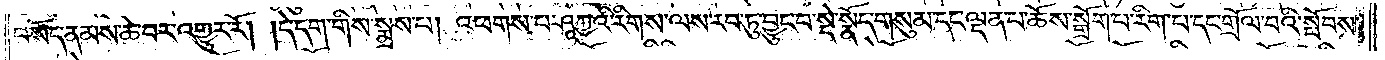བསོད་ནམས་ཆེ་བར་འགྱུར་རོ། །དེ་དག་གིས་སྨྲས་པ། འཕགས་པ་ཤཱཀྱའི་རིགས་ལས་རབ་ཏུ་བྱུང་བ་སྡེ་སྣོད་གསུམ་དང་ལྡན་པ་ཆོས་སྒྲོག་པ་རིག་པ་དང་གྲོལ་བའི་སྤོབས་
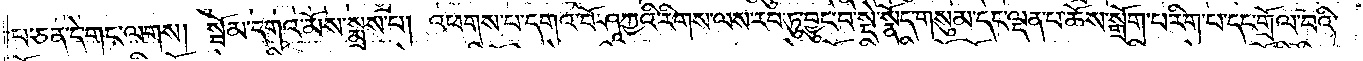པ་ཅན་དེ་གང་ལགས། སྦོམ་དགའ་མོས་སྨྲས་པ། འཕགས་པ་དགའ་བོ་ཤཱཀྱའི་རིགས་ལས་རབ་ཏུ་བྱུང་བ་སྡེ་སྣོད་གསུམ་དང་ལྡན་པ་ཆོས་སྒྲོག་པ་རིག་པ་དང་གྲོལ་བའི་
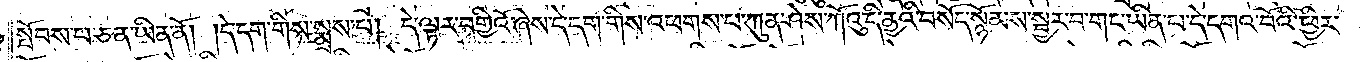སྤོབས་པ་ཅན་ཡིན་ནོ། །དེ་དག་གིས་སྨྲས་པ། དེ་ལྟར་བགྱིའོ་ཞེས་དེ་དག་གིས་འཕགས་པ་ཀུན་ཤེས་ཀོའུ་དི་ནྱའི་བསོད་སྙོམས་བྱར་བ་གང་ཡིན་པ་དེ་དགའ་བོའི་ཕྱིར་
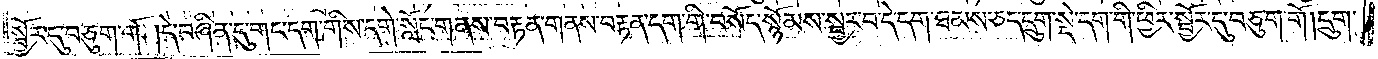སྦྱོར་དུ་བཅུག་གོ །དེ་བཞིན་དུ་གང་དག་གིས་དགེ་སློང་གནས་བརྟན་གནས་བརྟན་དག་གིས་བསོད་སྙོམས་སྦྱར་བ་དེ་དག་ཐམས་ཅད་དྲུག་སྡེ་དག་གི་ཕྱིར་སྦྱོར་དུ་བཅུག་གོ །དྲུག་
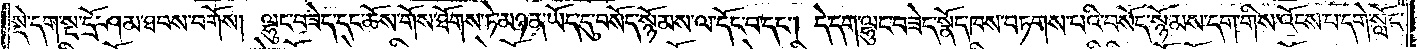སྡེ་དག་སྔ་དྲོ་ཤམ་ཐབས་བགོས། ལྷུང་བཟེད་དང་ཆོས་གོས་ཐོགས་ཏེ་མཉན་ཡོད་དུ་བསོད་སྙོམས་ལ་དོང་བ་དང༌། དེ་དག་ལྷུང་བཟེད་སྣོད་ཁས་བཏགས་པའི་བསོད་སྙོམས་དག་གིས་འོངས་པ་དགེ་སློང་
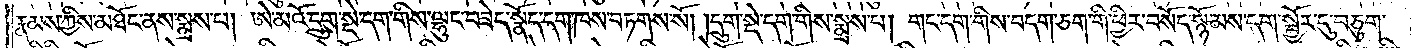རྣམས་ཀྱིས་མཐོང་ནས་སྨྲས་པ། ཨེ་མའོ་དྲུག་སྡེ་དག་གིས་ལྷུང་བཟེད་སྣོད་དག་ཁས་བཏགས་སོ། །དྲུག་སྡེ་དག་གིས་སྨྲས་པ། གང་དག་གིས་བདག་ཅག་གི་ཕྱིར་བསོད་སྙོམས་དག་སྦྱོར་དུ་བཅུག་
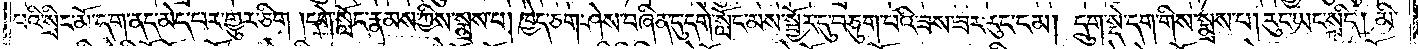པའི་སྲིང་མོ་དག་ནད་མེད་པར་གྱུར་ཅིག །དགེ་སློང་རྣམས་ཀྱིས་སྨྲས་པ། ཁྱེད་ཅག་ཤེས་བཞིན་དུ་དགེ་སློང་མས་སྦྱོར་དུ་བཅུག་པའི་ཟས་ཟར་རུང་ངམ། དྲུག་སྡེ་དག་གིས་སྨྲས་པ། རུང་ཡང་སྲིད། མི་
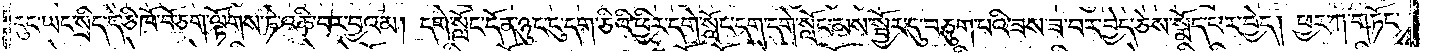རུང་ཡང་སྲིད་དེ་ཅི་ཁོ་བོ་ཅག་ལྟོགས་ཏེ་འཆི་བར་བྱའམ། དགེ་སློང་དོན་ཉུང་ངུ་དག་ཅིའི་ཕྱིར་དགེ་སློང་དག་དགེ་སློང་མས་སྦྱོར་དུ་བཅུག་པའི་ཟས་ཟ་བར་བྱེད་ཅེས་སྨོད་པར་བྱེད། ཕྱར་ཀ་གཏོང་
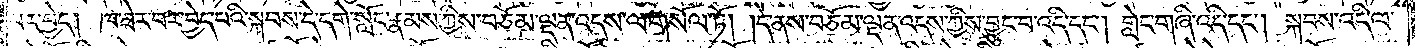བར་བྱེད། ཁ་ཟེར་བར་བྱེད་པའི་སྐབས་དེ་དགེ་སློང་རྣམས་ཀྱིས་བཅོམ་ལྡན་འདས་ལ་གསོལ་ཏོ། །དེ་ནས་བཅོམ་ལྡན་འདས་ཀྱིས་བྱུང་བ་འདི་དང༌། གླེང་གཞི་འདི་དང༌། སྐབས་འདི་ལ་
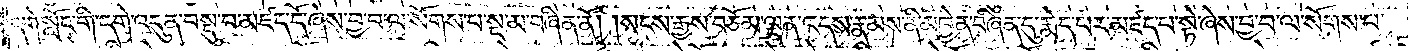དགེ་སློང་གི་དགེ་འདུན་བསྡུ་བ་མཛད་དོ་ཞེས་བྱ་བ་ལ་སོགས་པ་སྔ་མ་བཞིན་ནོ། །སངས་རྒྱས་བཅོམ་ལྡན་འདས་རྣམས་ནི་མཁྱེན་བཞིན་དུ་རྨེད་པར་མཛད་པ་སྟེ་ཞེས་བྱ་བ་ལ་སོགས་པ་
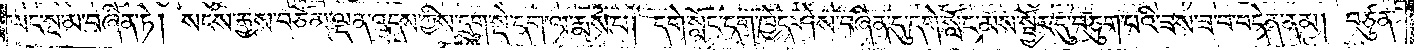ཡང་སྔ་མ་བཞིན་ཏེ། སངས་རྒྱས་བཅོམ་ལྡན་འདས་ཀྱིས་དྲུག་སྡེ་དག་ལ་རྨས་པ། དགེ་སློང་དག་ཁྱེད་ཤེས་བཞིན་དུ་དགེ་སློང་མས་སྦྱོར་དུ་བཅུག་པའི་ཟས་ཟ་བ་བདེན་ནམ། བཙུན་
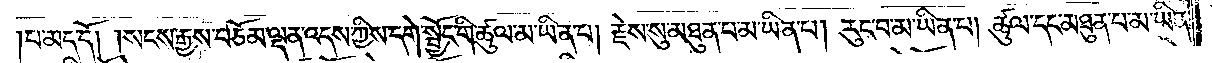པ་མད་དོ། །སངས་རྒྱས་བཅོམ་ལྡན་འདས་ཀྱིས་དགེ་སྦྱོང་གི་ཚུལ་མ་ཡིན་པ། རྗེས་སུ་མཐུན་པ་མ་ཡིན་པ། རུང་བ་མ་ཡིན་པ། ཚུལ་དང་མཐུན་པ་མ་ཡིན་
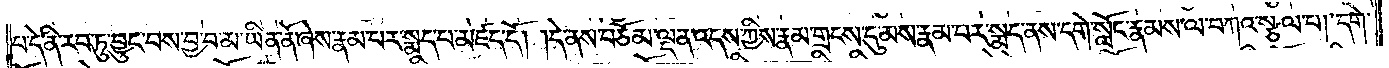པ་དེ་ནི་རབ་ཏུ་བྱུང་བས་བྱ་བ་མ་ཡིན་ནོ་ཞེས་རྣམ་པར་སྨད་པ་མཛད་དོ། །དེ་ནས་བཅོམ་ལྡན་འདས་ཀྱིས་རྣམ་གྲངས་དུ་མས་རྣམ་པར་སྨད་ནས་དགེ་སློང་རྣམས་ལ་བཀའ་སྩལ་པ། དགེ་
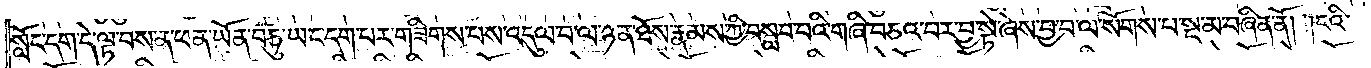སློང་དག་དེ་ལྟ་བས་ན་ཕན་ཡོན་བཅུ་ཡང་དག་པར་གཟིགས་པས་འདུལ་བ་ལ་ཉན་ཐོས་རྣམས་ཀྱི་བསླབ་པའི་གཞི་བཅའ་བར་བྱ་སྟེ་ཞེས་བྱ་བ་ལ་སོགས་པ་སྔ་མ་བཞིན་ནོ། །ངའི་
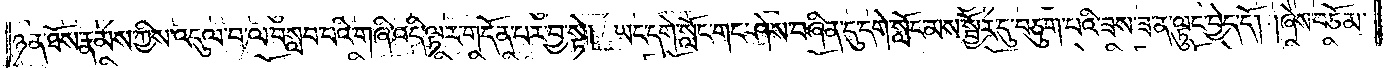ཉན་ཐོས་རྣམས་ཀྱིས་འདུལ་བ་ལ་བསླབ་པའི་གཞི་འདི་ལྟར་གདོན་པར་བྱ་སྟེ། ཡང་དགེ་སློང་གང་ཤེས་བཞིན་དུ་དགེ་སློང་མས་སྦྱོར་དུ་བཅུག་པའི་ཟས་ཟ་ན་ལྟུང་བྱེད་དོ། །ཞེས་བཅོམ་
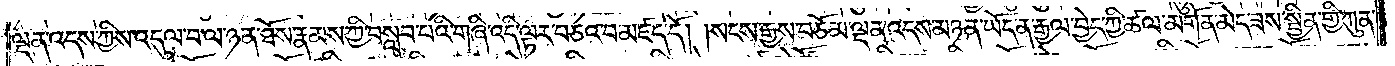ལྡན་འདས་ཀྱིས་འདུལ་བ་ལ་ཉན་ཐོས་རྣམས་ཀྱི་བསླབ་པའི་གཞི་འདི་ལྟར་བཅའ་བ་མཛད་དོ། །སངས་རྒྱས་བཅོམ་ལྡན་འདས་མཉན་ཡོད་ན་རྒྱལ་བྱེད་ཀྱི་ཚལ་མགོན་མེད་ཟས་སྦྱིན་གྱི་ཀུན་
